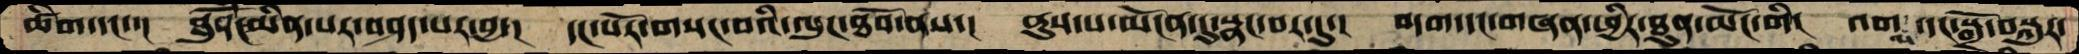ཚིག་དང་་། ཐུནོཾང་མིན་པར་བཤད་པར་བྱ་། དང་པོར་གསང་བའི་ལུང་ཐོབ་ནས་། ནུས་པ་མངོན་དུ་སྣང་བར་དུ་། བདག་དང་གཞན་ཕྱིར་ཐུན་མོང་གི། འགལ་དང་སྒྲོ་བསྐུར་
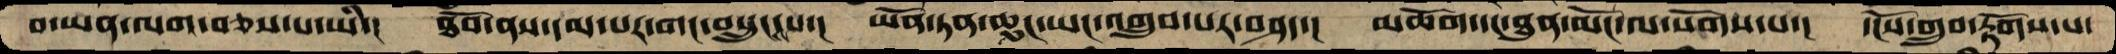བ་ཡན་ལག་བཅས་པ་ཡི་། ཐོབ་ནས་དམ་པར་གང་བསྲུངས་པ་། ཡོན་ཏན་ཆུང་ཡང་འགྲུབ་པར་བཤད་། མཆོག་དང་ཐུན་མོང་ལ་སོགས་པ་། དངོས་གྲུབ་རྟོགས་པ་
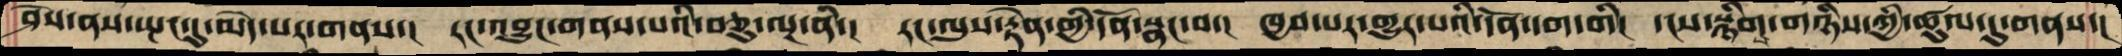ཤེས་ནས་སྤང་དུ་མེད་པར་གནས་། རང་འབྱུང་གནས་པའི་བཅུ་ལྔ་ནི་། རང་ལུས་རྟེན་གྱི་དོན་སྣང་བ་། ཁྱབ་པར་གྱུར་པའི་དོན་དག་གི་། དངས་སྙིགས་གཉིས་ཀྱི་ཚུལ་དུ་གནས་།
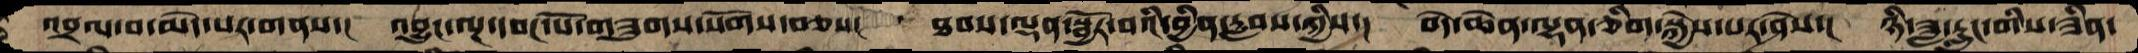འབྲལ་བ་མེད་པར་གནས་། འབྱུང་ལྔ་དབང་པོ་གཟུགས་སོགས་བཅས། ཐབས་ལྡན་སྦྱོར་བའི་བྱིན་རླབས་ཀྱིས་། བདེ་ཆེན་ལྷན་ཅིག་སྐྱེས་པར་ཤེས་། ཉི་ཟླ་རླུང་གིས་ཟིན་
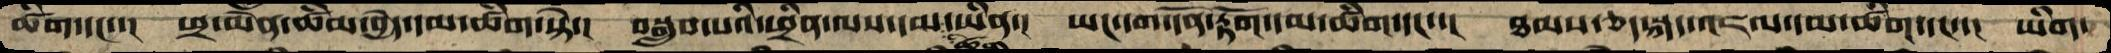ཚིག་དང་་། ཕྲ་མེན་ཚིམ་བྱེད་དམ་ཚིག་སྟེ་། བསྒྲུབ་པའི་ཕྲིན་ལས་དམ་ཚིག་ཡིན་། ཡང་དག་དོན་རྟོག་དམ་ཚིག་དང་་། ཐམས་ཅད་སྐད་འཇལ་དམ་ཚིག་དང་་། ཡིག་
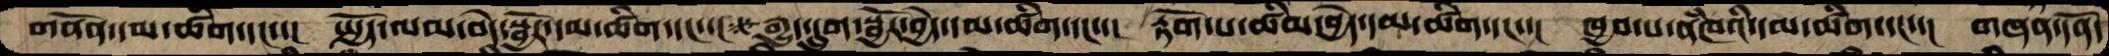གནོན་དམ་ཚིག་དང་་། སྤྱོད་ལམ་བདེ་སྦྱོར་དམ་ཚིག་དང་་། རྒྱུད་དྲུག་སྦྱོར་བྱེད་དམ་ཚིག་དང་་། རྟོག་པ་ཚིམ་བྱེད་དམ་ཚིག་དང་་། ཁྱབ་པ་ནཾཁའི་དམ་ཚིག་དང་་། གཞན་དོན་
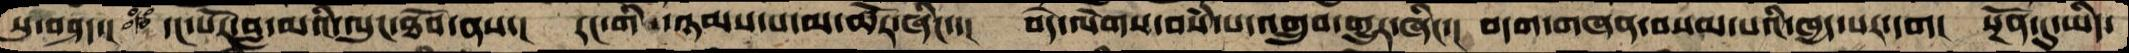སུ་བཤད་། དང་པོར་བླ་མའི་ལུང་ཐོབ་ནས་། རང་གི་ཉམས་པ་མ་ཚོར་ཞིང་་། བདེ་ལེགས་བསཾ་པ་འགྲུབ་གྱུར་ཞིང་། བདག་གཞན་བསམ་པའི་ཁྱད་པར་དག། སྔོན་དུ་ཡིད་
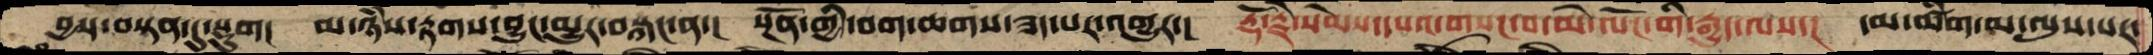བྱས་བསྟན་དུ་སྡུག། མ་ཉཾས་རྟགས་བྱུང་མྱུར་བསྐང་ན་། སྔོན་གྱི་བག་ཆགས་ཟད་པར་འགྱུར་། རྡོ་རྗེ་སེམས་དཔའ་གསང་བ་མེ་ལོང་གི་རྒྱུད་ལས་། དམ་ཚིག་མ་ལུས་པར་
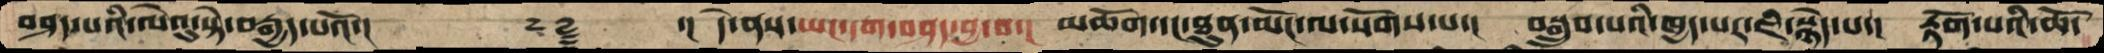བཤད་པའི་ལེའུ་སྟེ་བརྒྱད་པའོ་།     ༈    ་།  དེ་ནས་ཡང་དག་བཤད་བྱ་བ་། མཆོག་དང་ཐུན་མོང་ལ་སོགས་པ་། བསྒྲུབ་པའི་ཁྱད་པར་ཇི་སྙེད་པ་། རྟོག་པའི་ཆོ་
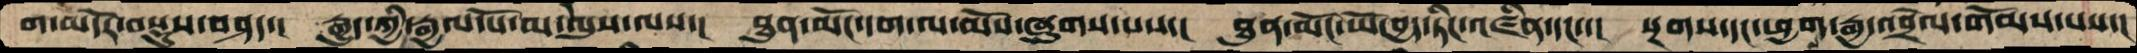ག་མདོར་བསྡུས་བཤད་། རྒྱུད་ཀྱི་རྒྱལ་པོ་མ་ལུས་ལས་། ཐུན་མོང་དག་ལ་མོས་ཞུགས་པས་། ཐུན་མོང་ཡོ་བྱད་ཏིང་འཛིན་དང་་། སྔགས་དང་ཕྱགས་རྒྱ་འབྲེལ་གོམས་པས་།
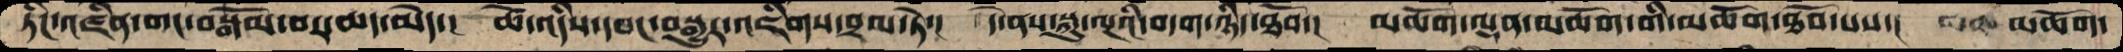ཏིང་འཛིན་གང་བསྒོམ་བར་ཆད་མེད་།  ཚེ་འདིས་དབང་བསྒྱུར་འཇིགས་བྲལ་ཏེ་། དེ་ནས་སྐུ་ལྔའི་བདག་ཉིད་ཐོབ་། མཆོག་ལྡན་མཆོག་གི་མཆོག་ཐོབ་པས་།  མཆོག་
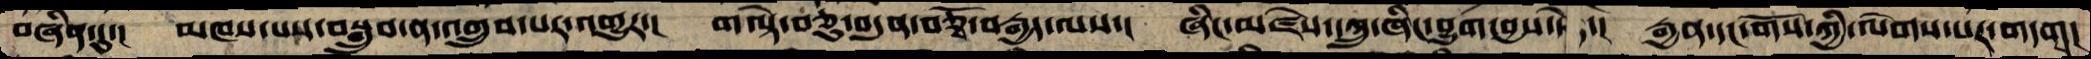བཞིན་དུ་། མཁས་པས་བསྒྲུབ་ན་འགྲུབ་པར་འགྱུར་། གལྟེ་བཅུ་བདུན་བཅྭོ་བརྒྱད་ལས་། ཞིང་མཛེས་དཀྲུ་ཞིང་བྱུག་བྱས་ཏེ་། རྒྱན་དང་གོས་ཀྱི་ལེགས་པར་གདགས།
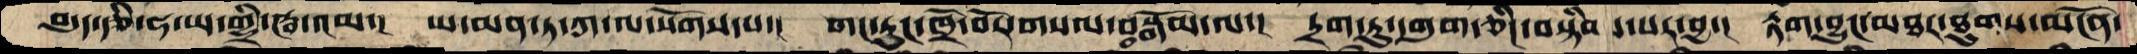བདུད་རྩི་ཧ་ཡ་གྷྲི་ཝ་འམ་། ཡ་མན་ཏ་ཀ་ལ་སོགས་པ་། གང་རུང་ཁྲོ་བོར་གསལ་བསྒོམ་ལ་། དྲག་ཏུ་དགུག་ཅིང་བསྟིམས་པར་བྱ་། རྟག་བྱུང་མཐར་ཐུགས་མངོན་
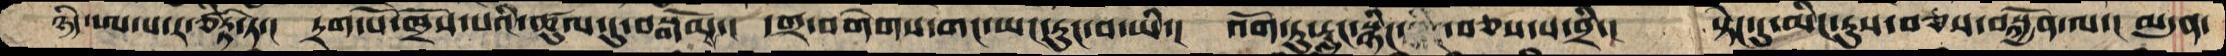ཉིད་ཨ་པ་ར་ཙིཏྟ་ཏེ་། དྲག་པོ་ཁྲོས་པའི་ཚུལ་དུ་བསྒོམས་། དགྲ་བགེགས་གང་ཡང་རུང་བ་ཡི་། འོག་ཏུ་རླུང་སྙིང་བཅས་པ་བྲི་། སྟེང་དུ་མིང་རུས་བཅས་བསྐྱོན་ལ་།  མདུན་
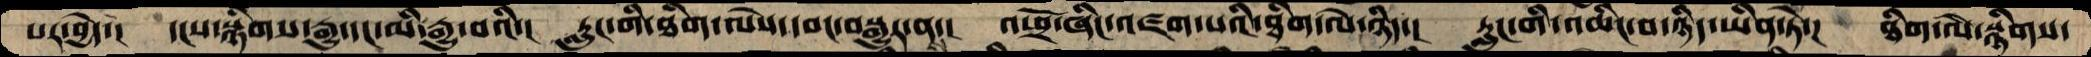པར་བྱེད་།  དངས་སྙིགས་རྒྱུ་དང་མི་རྒྱུ་བའི་། རླུང་གི་ཐིག་ལེས་དབང་བསྒྱུར་ནས་། འཕྲོ་ཞིང་འཛག་པའི་ཐིག་ལེ་ཉིད་། རླུང་གི་འཆིང་བ་ཉིད་ཡིན་ཏེ་། ཐིག་ལེ་སྙིགས་
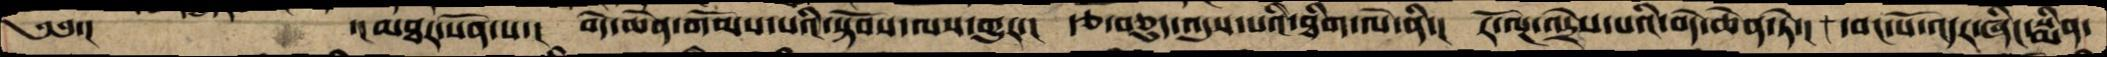༄༅་།         ་།མཐར་སོན་པ་།  བདེ་ཆེན་གོམས་པའི་སྟོབས་ལས་གྱུར་། རྩ་བཅུད་འདུས་པའི་ཐིག་ལེ་ནི་། རོ་ལྔ་འདྲེས་པའི་བདེ་ཆེན་ཏེ་། དབང་པོ་འདར་ཞིང་སྨིན་
